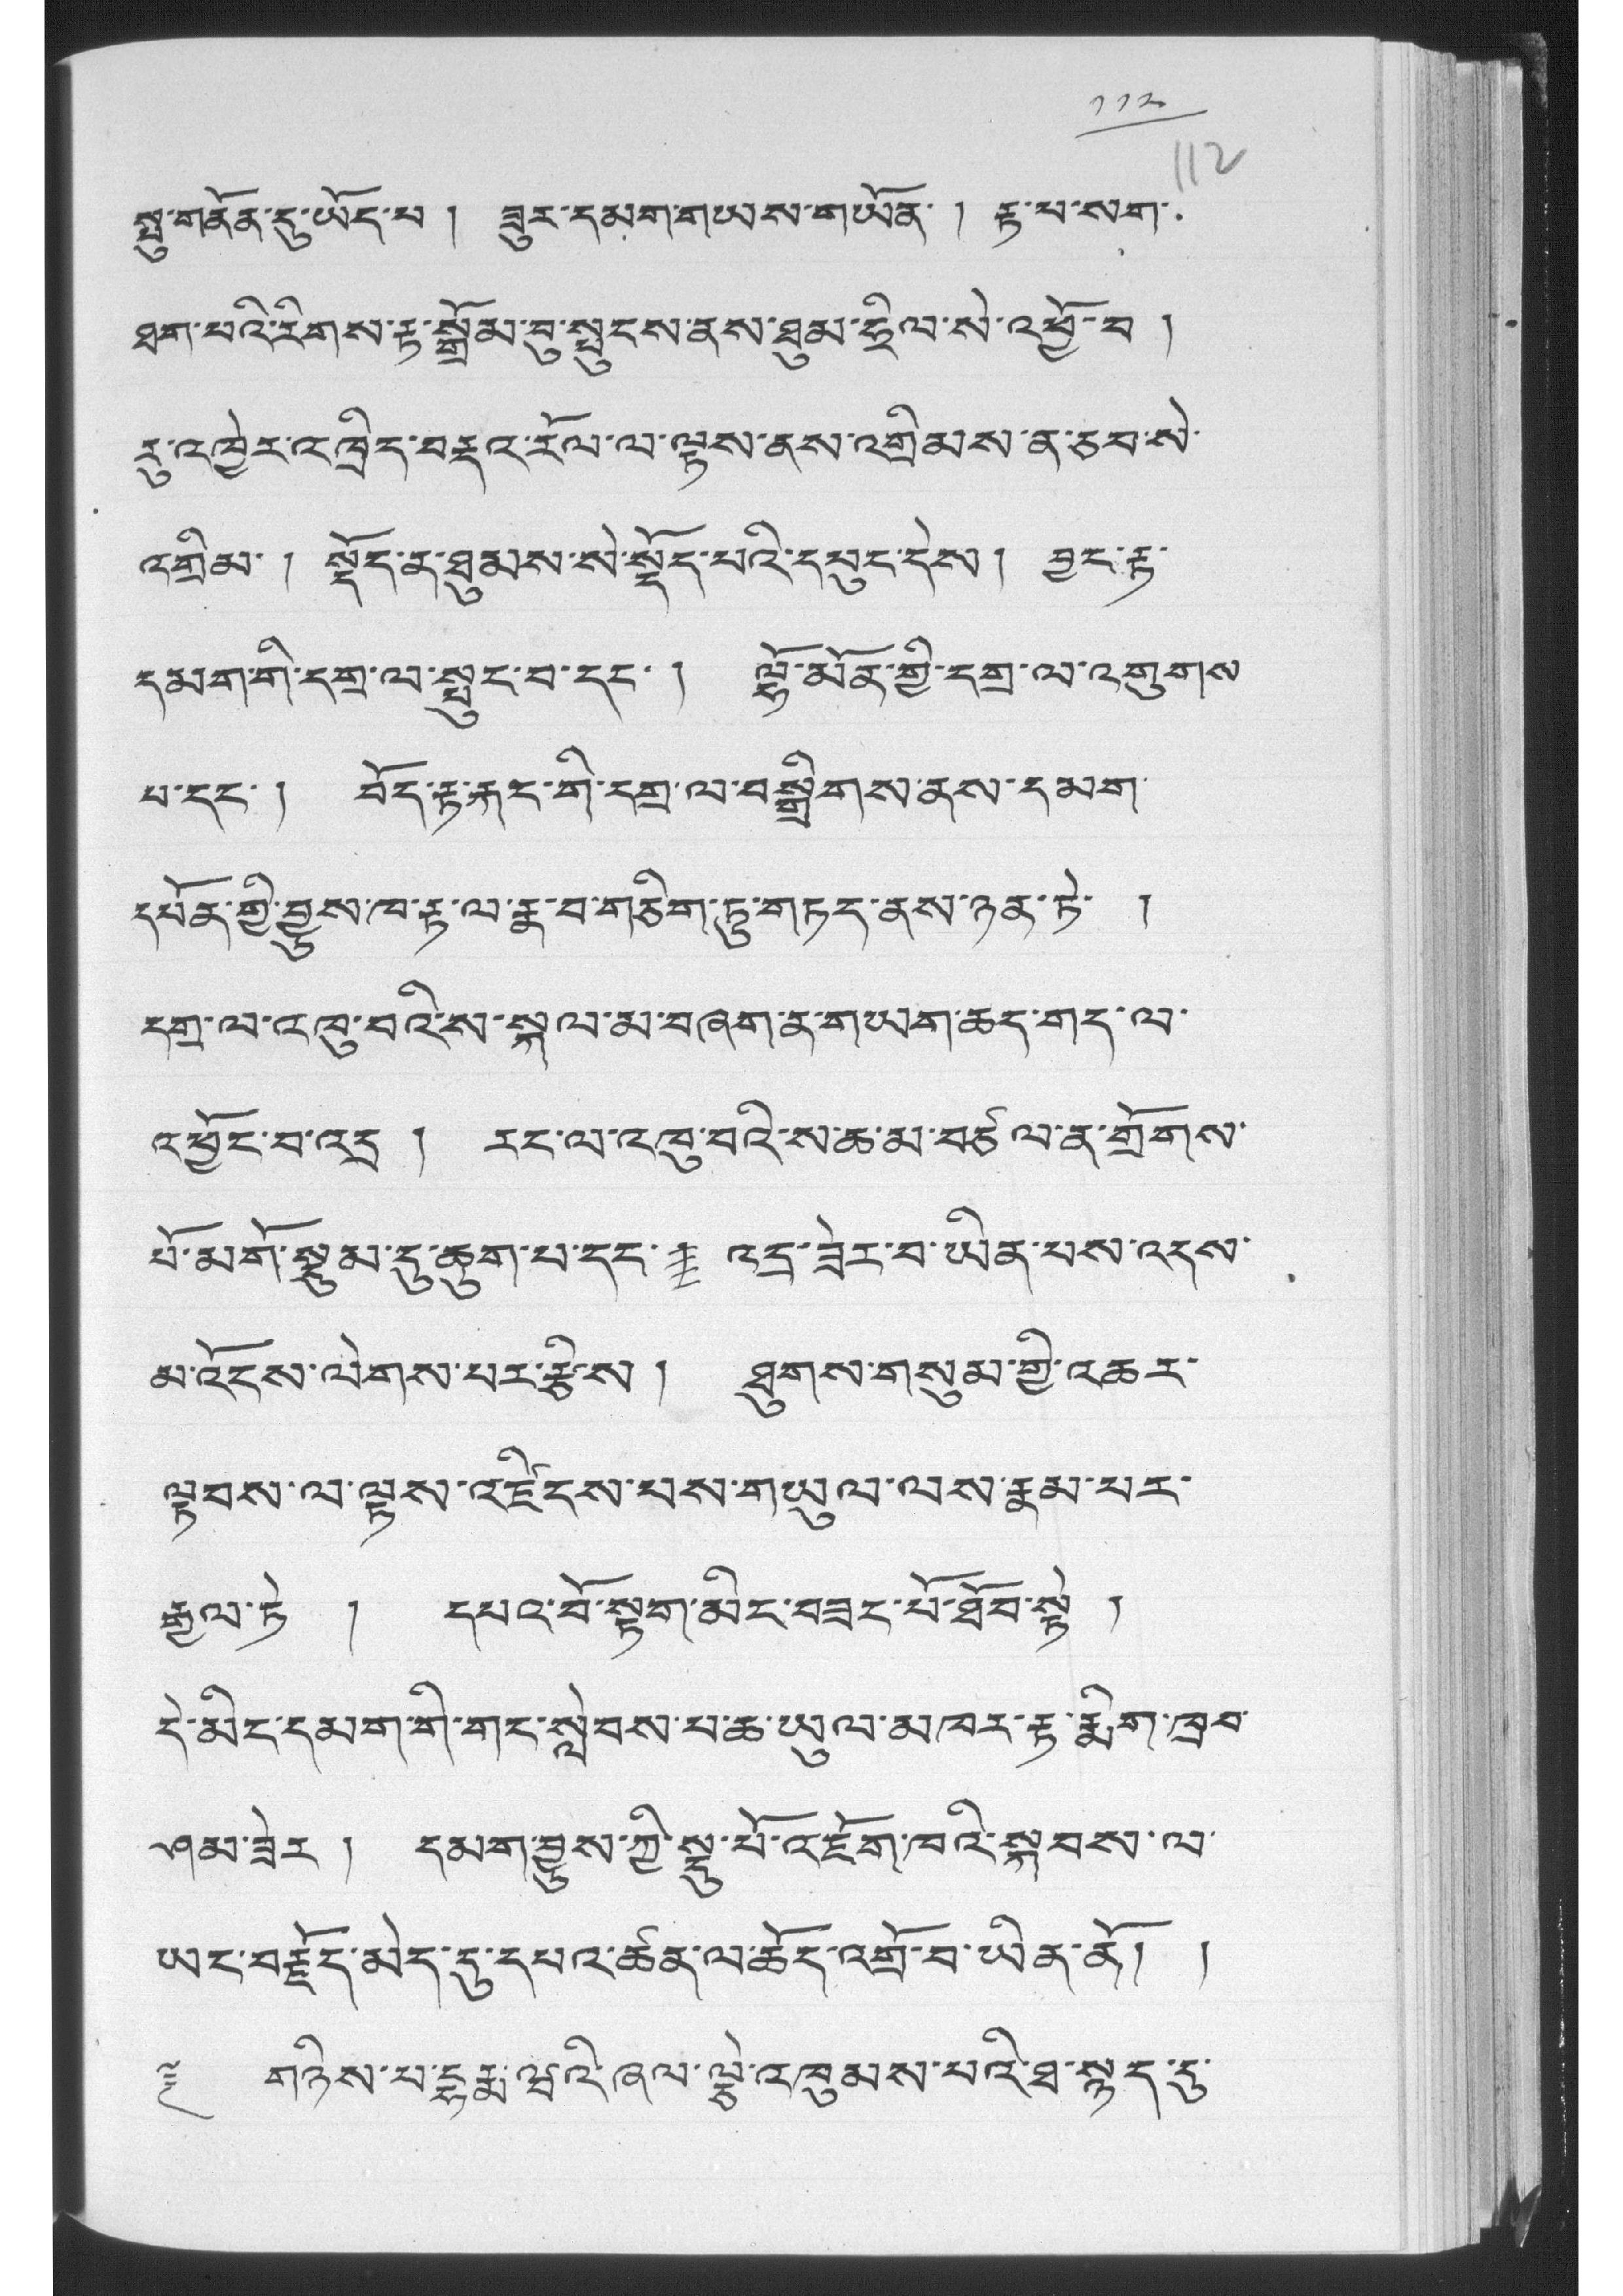༡༡༢
སྤུ་གནོན་དུ་ཡོད་པ ། ཟུར་དམག་གཡས་གཡོན་ ། རྟ་པ་སག་
ཐག་པའི་རིགས་རྟ་སྒྲོམ་བུ་སྤུངས་ནས་ཐུམ་ཧྲིལ་སེ་འཕྱོ་བ །
རུ་འཁྱེར་འཁྲིད་བརྡའ་རོལ་ལ་ལྟས་ནས་འགྲིམས་ན་ཅབ་སེ་
འགྲིམ་ ། སྡོད་ན་ཐུམས་སེ་སྡོད་པའི་དཔུང་དེས། བྱང་རྟ་
དམག་གི་དགྲ་ལ་སྤུང་བ་དང་ ། ལྷོ་མོན་གྱི་དགྲ་ལ་འགུགས་
པ་དང་། བོད་རྟ་རྐང་གི་དགྲ་ལ་བསྒྲིགས་ནས་དམག་
དཔོན་གྱི་བྱུས་ཁ་རྟ་ལ་རྣ་བ་གཅིག་ཏུ་གཏད་ནས་ཉན་ཏེ་ །
དགྲ་ལ་འཁུ་བའི་ས་སྐལ་མ་བཞག་ན་གཡག་ཆད་གད་ལ་
འཕྱོང་བ་འདྲ ། རང་ལ་འཁུ་བའི་ས་ཆ་མ་བཙལ་ན་གྲོགས་
པོ་མགོ་སྡུམ་དུ་ཆུག་པ་དང་ ། འདྲ་ཟེར་བ་ཡིན་པས་འདས་
མ་འོངས་ལེགས་པར་རྩིས ། ཐུགས་གསུམ་གྱི་འཆར་
ལྟབས་ལ་ལྟས་འཛིངས་པས་གཡུལ་ལས་རྣམ་པར་
རྒྱལ་ཏེ ། དཔའ་བོ་སྟག་མིང་བཟང་པོ་ཐོབ་སྟེ །
དེ་མིང་དམག་གི་གང་སླེབས་པ་ཆ་ཡུལ་མཁར་རྟ་རྨིག་ཁྲབ་
ཤམ་ཟེར ། དམག་བྱུས་ཀྱི་སྡུ་པོ་འཇོག་ཁའི་སྐབས་ལ་
ཡང་བརྗོད་མེད་དུ་དཔའ་ཚན་ལ་ཆོད་འགྲོ་བ་ཡིན་ནོ། །
༈ གཉིས་པ་དྷརྨ་ཝའི་ཞལ་ལྕེ་འཁུམས་པའི་ཐ་སྙད་དུ་
